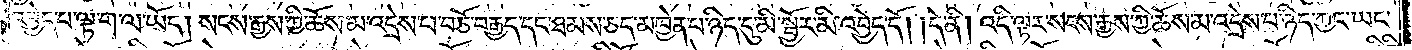འབྱེད་པ་ལྟ་ག་ལ་ཡོད། སངས་རྒྱས་ཀྱི་ཆོས་མ་འདྲེས་པ་བཅོ་བརྒྱད་དང་ཐམས་ཅད་མཁྱེན་པ་ཉིད་དུ་མི་སྦྱོར་མི་འབྱེད་དོ། །དེ་ནི། འདི་ལྟར་སངས་རྒྱས་ཀྱི་ཆོས་མ་འདྲེས་པ་ཉིད་ཀྱང་ཡང་
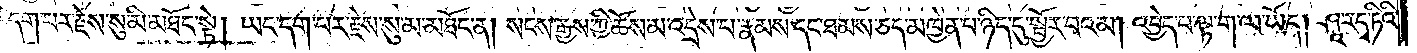དག་པར་རྗེས་སུ་མི་མཐོང་སྟེ། ཡང་དག་པར་རྗེས་སུ་མ་མཐོང་ན། སངས་རྒྱས་ཀྱི་ཆོས་མ་འདྲེས་པ་རྣམས་དང་ཐམས་ཅད་མཁྱེན་པ་ཉིད་དུ་སྦྱོར་བའམ། འབྱེད་པ་ལྟ་ག་ལ་ཡོད། ཤཱ་རདྭ་ཏིའི་
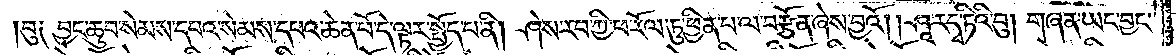བུ༑ བྱང་ཆུབ་སེམས་དཔའ་སེམས་དཔའ་ཆེན་པོ་དེ་ལྟར་སྤྱོད་པ་ནི། ཤེས་རབ་ཀྱི་ཕ་རོལ་ཏུ་ཕྱིན་པ་ལ་བརྩོན་ཞེས་བྱའོ། །ཤཱ་རདྭ་ཏིའི་བུ། གཞན་ཡང་བྱང་
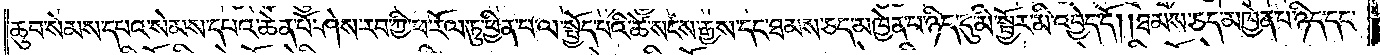ཆུབ་སེམས་དཔའ་སེམས་དཔའ་ཆེན་པོ་ཤེས་རབ་ཀྱི་ཕ་རོལ་ཏུ་ཕྱིན་པ་ལ་སྤྱོད་པའི་ཚེ་སངས་རྒྱས་དང་ཐམས་ཅད་མཁྱེན་པ་ཉིད་དུ་མི་སྦྱོར་མི་འབྱེད་དོ། །ཐམས་ཅད་མཁྱེན་པ་ཉིད་དང་
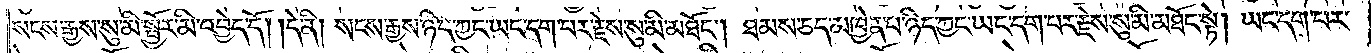སངས་རྒྱས་སུ་མི་སྦྱོར་མི་འབྱེད་དོ། །དེ་ནི། སངས་རྒྱས་ཉིད་ཀྱང་ཡང་དག་པར་རྗེས་སུ་མི་མཐོང༌། ཐམས་ཅད་མཁྱེན་པ་ཉིད་ཀྱང་ཡང་དག་པར་རྗེས་སུ་མི་མཐོང་སྟེ། ཡང་དག་པར་
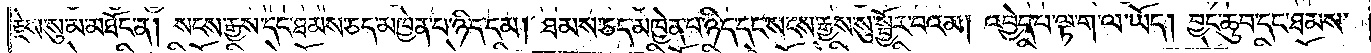རྗེས་སུ་མ་མཐོང་ན། སངས་རྒྱས་དང་ཐམས་ཅད་མཁྱེན་པ་ཉིད་དམ། ཐམས་ཅད་མཁྱེན་པ་ཉིད་དང་སངས་རྒྱས་སུ་སྦྱོར་བའམ། འབྱེད་པ་ལྟ་ག་ལ་ཡོད། བྱང་ཆུབ་དང་ཐམས་
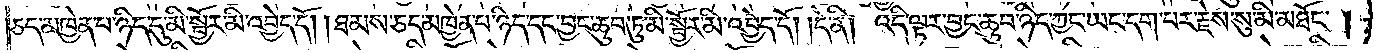ཅད་མཁྱེན་པ་ཉིད་དུ་མི་སྦྱོར་མི་འབྱེད་དོ། །ཐམས་ཅད་མཁྱེན་པ་ཉིད་དང་བྱང་ཆུབ་ཏུ་མི་སྦྱོར་མི་འབྱེད་དོ། །དེ་ནི། འདི་ལྟར་བྱང་ཆུབ་ཉིད་ཀྱང་ཡང་དག་པར་རྗེས་སུ་མི་མཐོང༌།
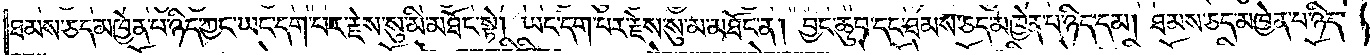ཐམས་ཅད་མཁྱེན་པ་ཉིད་ཀྱང་ཡང་དག་པར་རྗེས་སུ་མི་མཐོང་སྟེ། ཡང་དག་པར་རྗེས་སུ་མ་མཐོང་ན། བྱང་ཆུབ་དང་ཐམས་ཅད་མཁྱེན་པ་ཉིད་དམ། ཐམས་ཅད་མཁྱེན་པ་ཉིད་
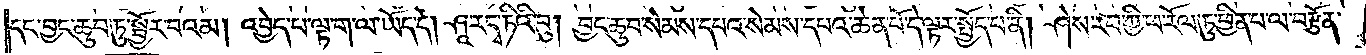དང་བྱང་ཆུབ་ཏུ་སྦྱོར་བའམ། འབྱེད་པ་ལྟ་ག་ལ་ཡོད་དེ། ཤཱ་ར་དྭ་ཏིའི་བུ། བྱང་ཆུབ་སེམས་དཔའ་སེམས་དཔའ་ཆེན་པོ་དེ་ལྟར་སྤྱོད་པ་ནི། ཤེས་རབ་ཀྱི་ཕ་རོལ་ཏུ་ཕྱིན་པ་ལ་བརྩོན་
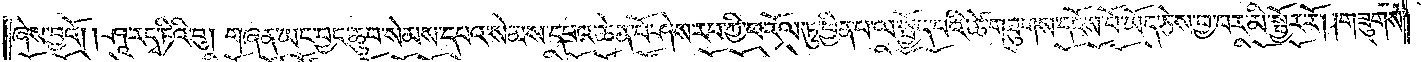ཞེས་བྱའོ། །ཤཱ་རདྭ་ཏིའི་བུ། གཞན་ཡང་བྱང་ཆུབ་སེམས་དཔའ་སེམས་དཔའ་ཆེན་པོ་ཤེས་རབ་ཀྱི་ཕ་རོལ་ཏུ་ཕྱིན་པ་ལ་སྤྱོད་པའི་ཚེ་གཟུགས་དངོས་པོ་ཡོད་ཅེས་བྱ་བར་མི་སྦྱོར་རོ། །གཟུགས་
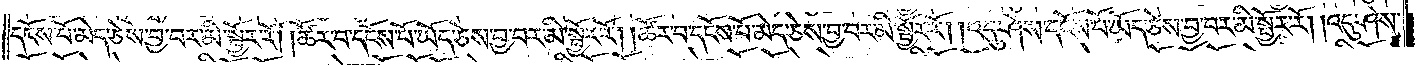དངོས་པོ་མེད་ཅེས་བྱ་བར་མི་སྦྱོར་རོ། །ཚོར་བ་དངོས་པོ་ཡོད་ཅེས་བྱ་བར་མི་སྦྱོར་རོ། །ཚོར་བ་དངོས་པོ་མེད་ཅེས་བྱ་བར་མི་སྦྱོར་རོ། །འདུ་ཤེས་དངོས་པོ་ཡོད་ཅེས་བྱ་བར་མི་སྦྱོར་རོ། །འདུ་ཤེས་
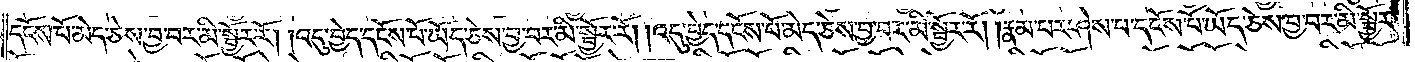དངོས་པོ་མེད་ཅེས་བྱ་བར་མི་སྦྱོར་རོ། །འདུ་བྱེད་དངོས་པོ་ཡོད་ཅེས་བྱ་བར་མི་སྦྱོར་རོ། །འདུ་བྱེད་དངོས་པོ་མེད་ཅེས་བྱ་བར་མི་སྦྱོར་རོ། །རྣམ་པར་ཤེས་པ་དངོས་པོ་ཡོད་ཅེས་བྱ་བར་མི་སྦྱོར་
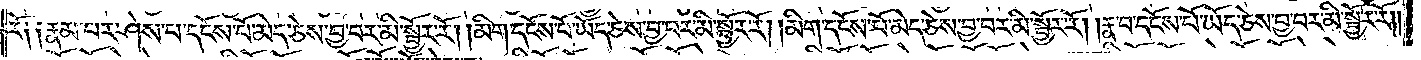རོ༑ ༑རྣམ་པར་ཤེས་པ་དངོས་པོ་མེད་ཅེས་བྱ་བར་མི་སྦྱོར་རོ། །མིག་དངོས་པོ་ཡོད་ཅེས་བྱ་བར་མི་སྦྱོར་རོ། །མིག་དངོས་པོ་མེད་ཅེས་བྱ་བར་མི་སྦྱོར་རོ། །རྣ་བ་དངོས་པོ་ཡོད་ཅེས་བྱ་བར་མི་སྦྱོར་རོ། །
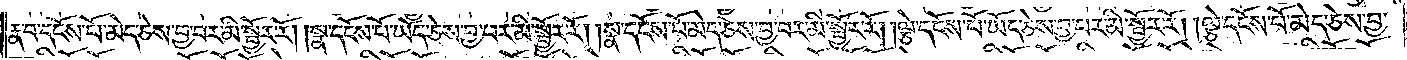རྣ་བ་དངོས་པོ་མེད་ཅེས་བྱ་བར་མི་སྦྱོར་རོ། །སྣ་དངོས་པོ་ཡོད་ཅེས་བྱ་བར་མི་སྦྱོར་རོ། །སྣ་དངོས་པོ་མེད་ཅེས་བྱ་བར་མི་སྦྱོར་རོ། །ལྕེ་དངོས་པོ་ཡོད་ཅེས་བྱ་བར་མི་སྦྱོར་རོ། །ལྕེ་དངོས་པོ་མེད་ཅེས་བྱ་
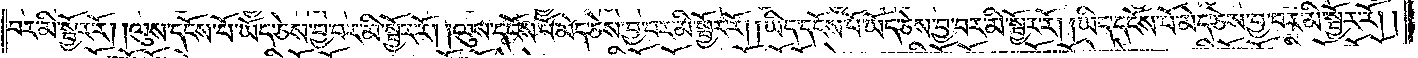བར་མི་སྦྱོར་རོ། །ལུས་དངོས་པོ་ཡོད་ཅེས་བྱ་བར་མི་སྦྱོར་རོ། །ལུས་དངོས་པོ་མེད་ཅེས་བྱ་བར་མི་སྦྱོར་རོ། །ཡིད་དངོས་པོ་ཡོད་ཅེས་བྱ་བར་མི་སྦྱོར་རོ། །ཡིད་དངོས་པོ་མེད་ཅེས་བྱ་བར་མི་སྦྱོར་རོ། །
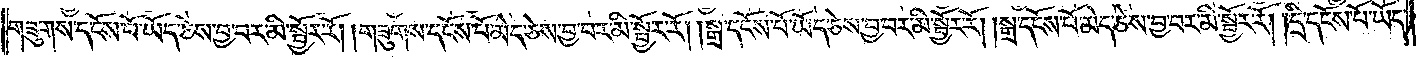གཟུགས་དངོས་པོ་ཡོད་ཅེས་བྱ་བར་མི་སྦྱོར་རོ། །གཟུགས་དངོས་པོ་མེད་ཅེས་བྱ་བར་མི་སྦྱོར་རོ། །སྒྲ་དངོས་པོ་ཡོད་ཅེས་བྱ་བར་མི་སྦྱོར་རོ། །སྒྲ་དངོས་པོ་མེད་ཅེས་བྱ་བར་མི་སྦྱོར་རོ། །དྲི་དངོས་པོ་ཡོད་
